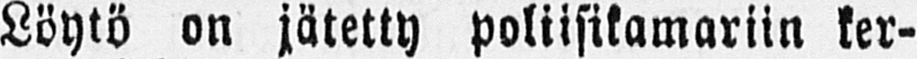Löytö on jätetty poliisikamariin ker-
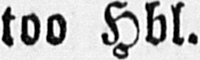too Hbl.
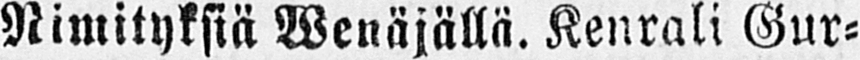Nimityksiä Wenäjällä. Kenrali Gur-
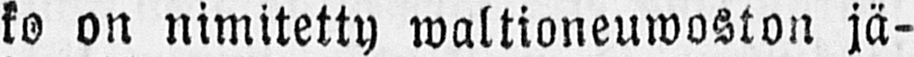ko on nimitetty waltioneuwoston jä-
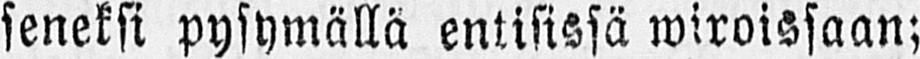seneksi pysymällä entisissä wiroissaan;
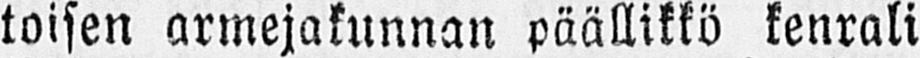toisen armejakunnan päällikkö kenrali
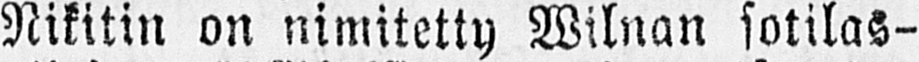Nikitin on nimitetty Wilnan sotilas-
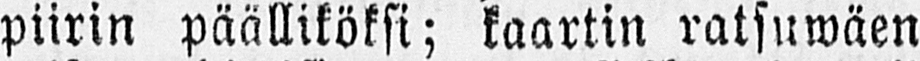piirin päälliköksi; kaartin ratsuwäen
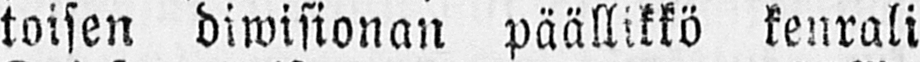toisen diwisionan päällikkö kenrali
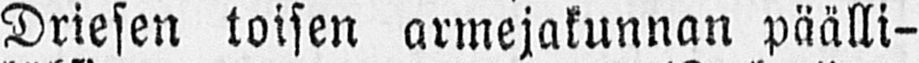Driesen toisen armejakunnan päälli-
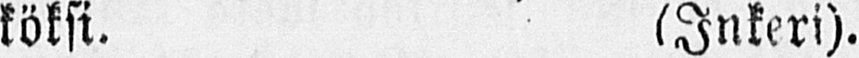köksi. (Inkeri).
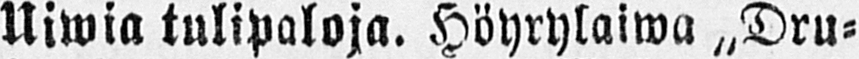Uiwia tulipaloja. Höyrylaiwa „Dru-
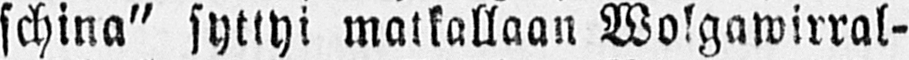schina" syttyi matkallaan Wolgawirral-
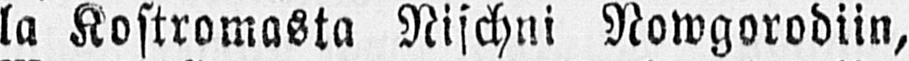la Kostromasta Nischni Nowgorodiin,
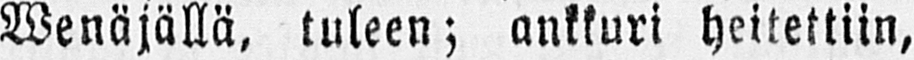Wenäjällä, tuleen; ankkuri heitettiin,
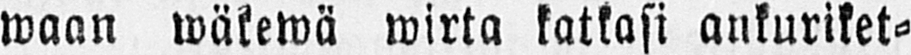waan wäkewä wirta katkasi ankuriket-
